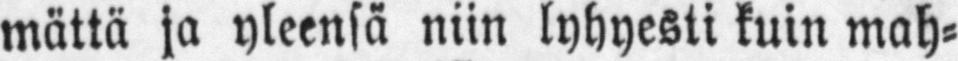mättä ja yleensä niin lyhyesti kuin mah-
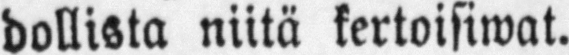dollista niitä kertoisiwat.
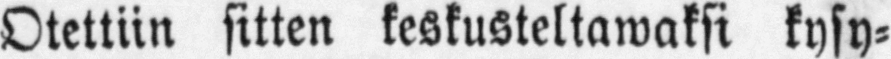Otettiin sitten keskusteltawaksi kysy-
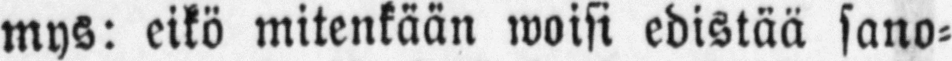mys: eikö mitenkään woisi edistää sano-
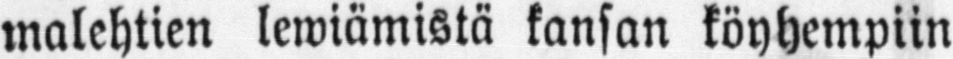malehtien lewiämistä kansan köyhempiin
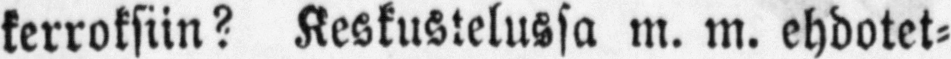kerroksiin? Keskustelussa m. m. ehdotet-
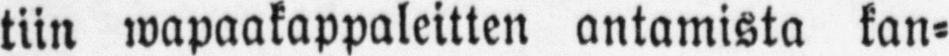tiin wapaakappaleitten antamista kan-
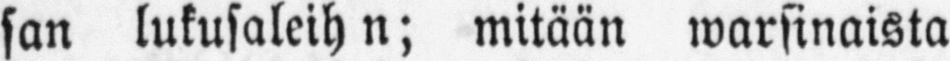san lukusaleih n; mitään warsinaista
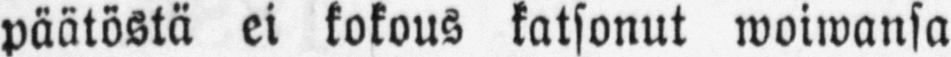päätöstä ei kokous katsonut woiwansa
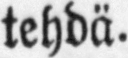tehdä.
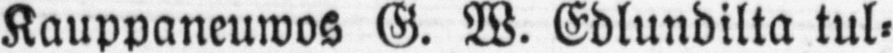Kauppaneuwos G. W. Edlundilta tul-
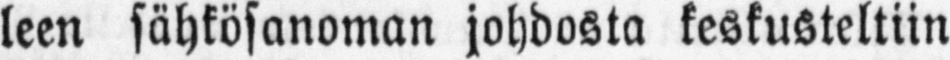leen sähkösanoman johdosta keskusteltiin
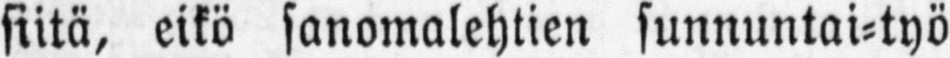siitä, eikö sanomalehtien sunnuntai-työ
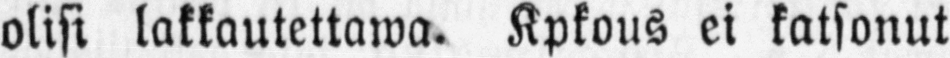olisi lakkautettawa. Kpkous ei katsonut
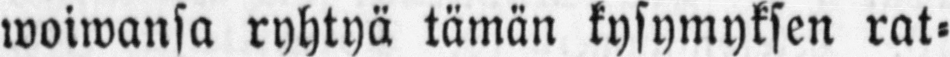woiwansa ryhtyä tämän kysymyksen rat-
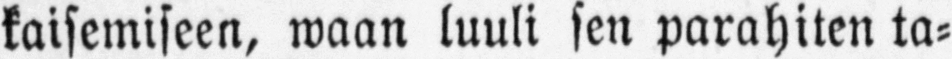kaisemiseen, waan luuli sen parahiten ta-
